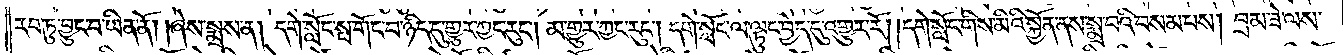རབ་ཏུ་བྱུང་བ་ཡིན་ནོ། །ཞེས་སྨྲས་ན། དགེ་སློང་སྤ་གོང་བ་ཉིད་དུ་གྱུར་ཀྱང་རུང༌། མ་གྱུར་ཀྱང་རུང༌། དགེ་སློང་ལ་ལྟུང་བྱེད་དུ་འགྱུར་རོ། །དགེ་སློང་གིས་མིའི་སྐྱོན་ནས་སྨྲ་བའི་བསམ་པས། བྲམ་ཟེ་ལས་
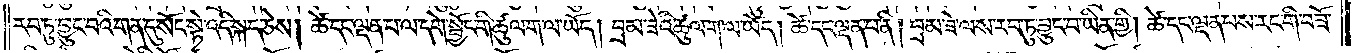རབ་ཏུ་བྱུང་བའི་གན་དུ་སོང་སྟེ་འདི་སྐད་ཅེས། ཚེ་དང་ལྡན་པ་ལ་དགེ་སྦྱོང་གི་ཚུལ་ག་ལ་ཡོད། བྲམ་ཟེའི་ཚུལ་ག་ལ་ཡོད། ཚེ་དང་ལྡན་པ་ནི། བྲམ་ཟེ་ལས་རབ་ཏུ་བྱུང་བ་ཡིན་གྱི། ཚེ་དང་ལྡན་པས་རང་གི་བཟོ་
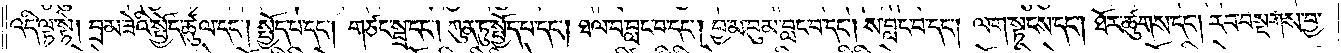འདི་ལྟ་སྟེ། བྲམ་ཟེའི་སྤྱོད་ཚུལ་དང༌། སྤྱོད་པ་དང༌། གཙང་སྦྲ་དང༌། ཀུན་ཏུ་སྤྱོད་པ་དང༌། ཐལ་བ་བླང་བ་དང༌། བྱ་མ་བུམ་བླང་བ་དང༌། ས་བླང་བ་དང༌། ལག་སྟངས་དང༌། ཐོར་ཚུགས་དང༌། རབ་བསྔགས་བྱ་
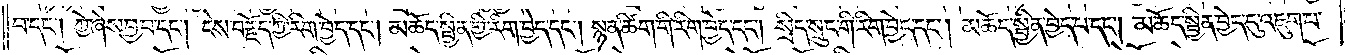བ་དང༌། ཀྱེ་ཞེས་བྱ་བ་དང༌། ངེས་བརྗོད་ཀྱི་རིག་བྱེད་དང༌། མཆོད་སྦྱིན་གྱི་རིག་བྱེད་དང༌། སྙན་ཚིག་གི་རིག་བྱེད་དང༌། སྲིད་སྲུང་གི་རིག་བྱེད་དང༌། མཆོད་སྦྱིན་བྱེད་པ་དང༌། མཆོད་སྦྱིན་བྱེད་དུ་འཇུག་པ་
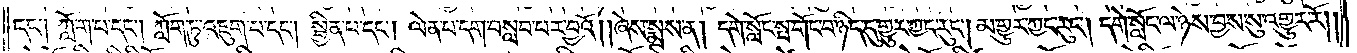དང༌། ཀློག་པ་དང༌། ཀློག་ཏུ་འཇུག་པ་དང༌། སྦྱིན་པ་དང༌། ལེན་པ་དག་བསླབ་པར་བྱའོ། །ཞེས་སྨྲས་ན། དགེ་སློང་སྤ་གོང་བ་ཉིད་དུ་གྱུར་ཀྱང་རུང༌། མ་གྱུར་ཀྱང་རུང༌། དགེ་སློང་ལ་ཉེས་བྱས་སུ་འགྱུར་རོ། །
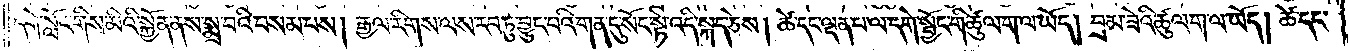དགེ་སློང་གིས་མིའི་སྐྱོན་ནས་སྨྲ་བའི་བསམ་པས། རྒྱལ་རིགས་ལས་རབ་ཏུ་བྱུང་བའི་གན་དུ་སོང་སྟེ་འདི་སྐད་ཅེས། ཚེ་དང་ལྡན་པ་ལ་དགེ་སྦྱོང་གི་ཚུལ་ག་ལ་ཡོད། བྲམ་ཟེའི་ཚུལ་ག་ལ་ཡོད། ཚེ་དང་
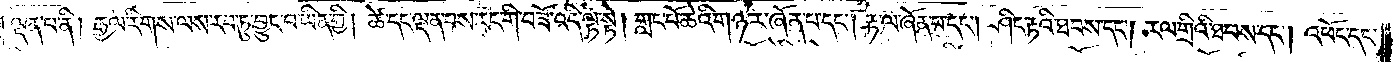ལྡན་པ་ནི། རྒྱལ་རིགས་ལས་རབ་ཏུ་བྱུང་བ་ཡིན་གྱི། ཚེ་དང་ལྡན་པས་རང་གི་བཟོ་འདི་ལྟ་སྟེ། གླང་པོ་ཆེའི་གཉར་ཞོན་པ་དང༌། རྟ་ལ་ཞོན་པ་དང༌། ཤིང་རྟའི་ཐབས་དང༌། རལ་གྲིའི་ཐབས་དང༌། འཕོང་དང་
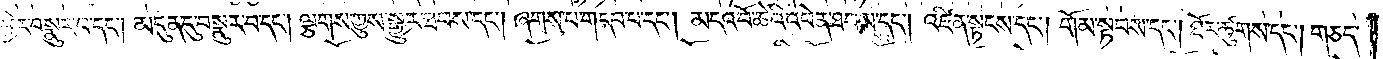ཕྱིར་བསྣུར་བ་དང༌། མདུན་དུ་བསྣུར་བ་དང༌། ལྕགས་ཀྱུས་སྒྱུར་ཐབས་དང༌། ཞགས་པ་གདབ་པ་དང༌། མདའ་བོ་ཆེའི་འཕེན་ཐབས་དང༌། འཛིན་སྟངས་དང༌། གོམ་སྟབས་དང༌། ཐོར་ཚུགས་དང༌། གཅད་
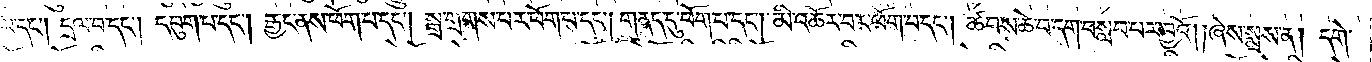པ་དང༌། དྲལ་བ་དང༌། དབུག་པ་དང༌། རྒྱང་ནས་ཕོག་པ་དང༌། སྒྲ་གྲགས་པར་ཕོག་པ་དང༌། གནད་དུ་ཕོག་པ་དང༌། མི་འཆོར་བར་ཕོག་པ་དང༌། ཚབས་ཆེ་བ་དག་བསླབ་པར་བྱའོ། །ཞེས་སྨྲས་ན། དགེ་
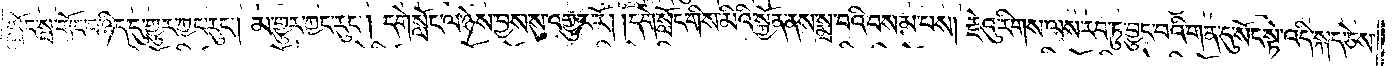སློང་སྤ་གོང་བ་ཉིད་དུ་གྱུར་ཀྱང་རུང༌། མ་གྱུར་ཀྱང་རུང༌། དགེ་སློང་ལ་ཉེས་བྱས་སུ་འགྱུར་རོ། །དགེ་སློང་གིས་མིའི་སྐྱོན་ནས་སྨྲ་བའི་བསམ་པས། རྗེའུ་རིགས་ལས་རབ་ཏུ་བྱུང་བའི་གན་དུ་སོང་སྟེ་འདི་སྐད་ཅེས་
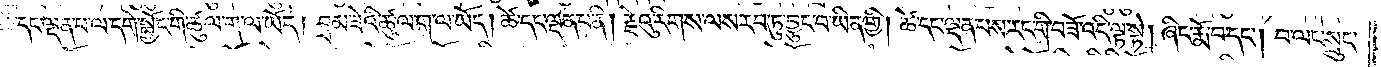ཚེ་དང་ལྡན་པ་ལ་དགེ་སྦྱོང་གི་ཚུལ་ག་ལ་ཡོད། བྲམ་ཟེའི་ཚུལ་ག་ལ་ཡོད། ཚེ་དང་ལྡན་པ་ནི། རྗེའུ་རིགས་ལས་རབ་ཏུ་བྱུང་བ་ཡིན་གྱི། ཚེ་དང་ལྡན་པས་རང་གི་བཟོ་འདི་ལྟ་སྟེ། ཞིང་རྨོ་བ་དང༌། བ་ལང་སྲུང་
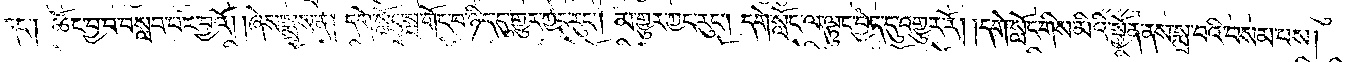བ་དང༌། ཚོང་བྱ་བ་བསླབ་པར་བྱའོ། །ཞེས་སྨྲས་ན། དགེ་སློང་སྤ་གོང་བ་ཉིད་དུ་གྱུར་ཀྱང་རུང༌། མ་གྱུར་ཀྱང་རུང༌། དགེ་སློང་ལ་ལྟུང་བྱེད་དུ་འགྱུར་རོ། །དགེ་སློང་གིས་མིའི་སྐྱོན་ནས་སྨྲ་བའི་བསམ་པས།
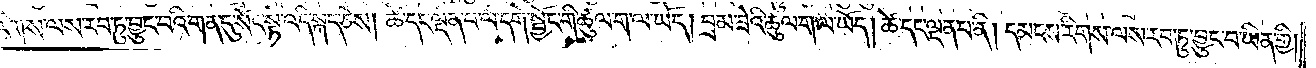དམངས་རིགས་ལས་རབ་ཏུ་བྱུང་བའི་གན་དུ་སོང་སྟེ་འདི་སྐད་ཅེས། ཚེ་དང་ལྡན་པ་ལ་དགེ་སྦྱོང་གི་ཚུལ་ག་ལ་ཡོད། བྲམ་ཟེའི་ཚུལ་ག་ལ་ཡོད། ཚེ་དང་ལྡན་པ་ནི། དམངས་རིགས་ལས་རབ་ཏུ་བྱུང་བ་ཡིན་གྱི།
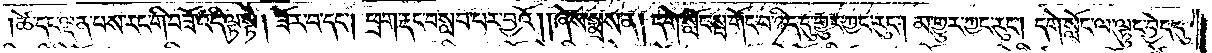ཚེ་དང་ལྡན་པས་རང་གི་བཟོ་འདི་ལྟ་སྟེ། ཟོར་བ་དང༌། ཕྲག་རྡང་བསླབ་པར་བྱའོ། །ཞེས་སྨྲས་ན། དགེ་སློང་སྤ་གོང་བ་ཉིད་དུ་གྱུར་ཀྱང་རུང༌། མ་གྱུར་ཀྱང་རུང༌། དགེ་སློང་ལ་ལྟུང་བྱེད་དུ་
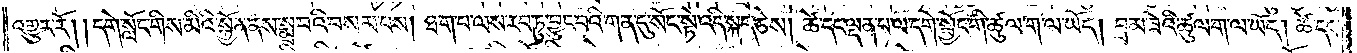འགྱུར་རོ། །དགེ་སློང་གིས་མིའི་སྐྱོན་ནས་སྨྲ་བའི་བསམ་པས། ཐག་པ་ལས་རབ་ཏུ་བྱུང་བའི་གན་དུ་སོང་སྟེ་འདི་སྐད་ཅེས། ཚེ་དང་ལྡན་པ་ལ་དགེ་སྦྱོང་གི་ཚུལ་ག་ལ་ཡོད། བྲམ་ཟེའི་ཚུལ་ག་ལ་ཡོད། ཚེ་དང་
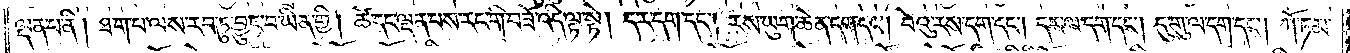ལྡན་པ་ནི། ཐ་ག་པ་ལས་རབ་ཏུ་བྱུང་བ་ཡིན་གྱི། ཚེ་དང་ལྡན་པས་རང་གི་བཟོ་འདི་ལྟ་སྟེ། དར་དག་དང༌། རས་ཡུག་ཆེན་དག་དང༌། བེའུ་རས་དག་དང༌། དར་ལ་དག་དང༌། དུ་གུ་ལ་དག་དང༌། ཀོ་ཏམ་
